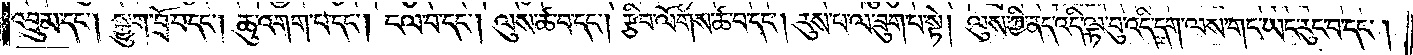འབྲུམ་དང༌། སྐྱུག་བྲོ་བ་དང༌། ཆུ་འགག་པ་དང༌། ངལ་བ་དང༌། ལུས་ཚ་བ་དང༌། རྩིབ་ལོགས་ཚ་བ་དང༌། རུས་པ་ལ་ཟུག་པ་སྟེ། ལུས་ཀྱི་ནད་འདི་ལྟ་བུ་འདི་དག་ལས་གང་ཡང་རུང་བ་དང༌།
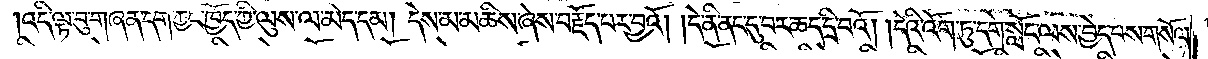།འདི་ལྟ་བུ་གཞན་དག་ཀྱང་ཁྱོད་ཀྱི་ལུས་ལ་མེད་དམ། དེས་མ་མཆིས་ཞེས་བརྗོད་པར་བྱའོ། །དེ་ནི་ནང་དུ་བར་ཆད་དྲི་བའོ། །དེའི་འོག་ཏུ་དགེ་སློང་ལས་བྱེད་པས་གསོལ་
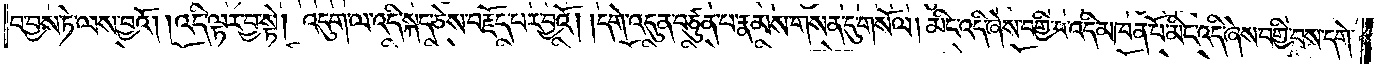བ་བྱས་ཏེ་ལས་བྱའོ། །འདི་ལྟར་བྱ་སྟེ། འདུག་ལ་འདི་སྐད་ཅེས་བརྗོད་པར་བྱའོ། །དགེ་འདུན་བཙུན་པ་རྣམས་གསན་དུ་གསོལ། མིང་འདི་ཞེས་བགྱི་བ་འདི་མཁན་པོ་མིང་འདི་ཞེས་བགྱི་བས་དགེ་
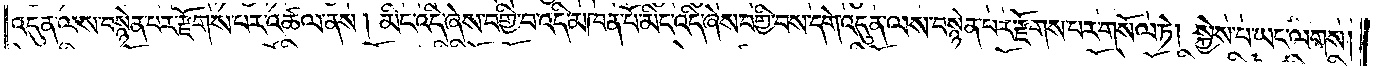འདུན་ལས་བསྙེན་པར་རྫོགས་པར་འཚལ་ནས། མིང་འདི་ཞེས་བགྱི་བ་འདི་མཁན་པོ་མིང་འདི་ཞེས་བགྱི་བས་དགེ་འདུན་ལས་བསྙེན་པར་རྫོགས་པར་གསོལ་ཏེ། སྐྱེས་པ་ཡང་ལགས།
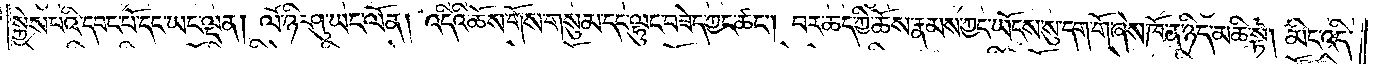སྐྱེས་པའི་དབང་པོ་དང་ཡང་ལྡན། ལོ་ཉི་ཤུ་ཡང་ལོན། འདིའི་ཆོས་གོས་གསུམ་དང་ལྷུང་བཟེད་ཀྱང་ཚང༌། བར་ཆད་ཀྱི་ཆོས་རྣམས་ཀྱང་ཡོངས་སུ་དག་གོ་ཞེས་ཁོ་ན་ཉིད་མཆི་སྟེ། མིང་འདི་
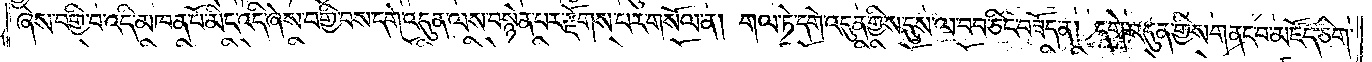ཞེས་བགྱི་བ་འདི་མཁན་པོ་མིང་འདི་ཞེས་བགྱི་བས་དགེ་འདུན་ལས་བསྙེན་པར་རྫོགས་པར་གསོལ་ན། གལ་ཏེ་དགེ་འདུན་གྱིས་དུས་ལ་བབ་ཅིང་བཟོད་ན། དགེ་འདུན་གྱིས་གནང་བ་མཛོད་ཅིག་
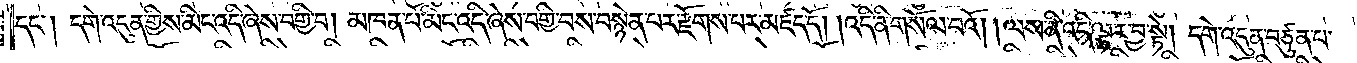དང༌། དགེ་འདུན་གྱིས་མིང་འདི་ཞེས་བགྱི་བ། མཁན་པོ་མིང་འདི་ཞེས་བགྱི་བས་བསྙེན་པར་རྫོགས་པར་མཛད་དོ། །འདི་ནི་གསོལ་བའོ། །ལས་ནི་འདི་ལྟར་བྱ་སྟེ། དགེ་འདུན་བཙུན་པ་
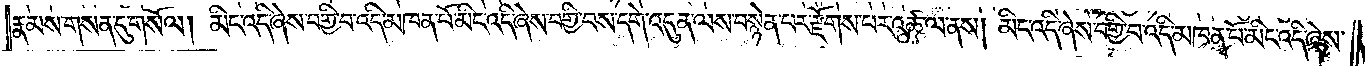རྣམས་གསན་དུ་གསོལ། མིང་འདི་ཞེས་བགྱི་བ་འདི་མཁན་པོ་མིང་འདི་ཞེས་བགྱི་བས་དགེ་འདུན་ལས་བསྙེན་པར་རྫོགས་པར་འཚལ་ནས། མིང་འདི་ཞེས་བགྱི་བ་འདི་མཁན་པོ་མིང་འདི་ཞེས་
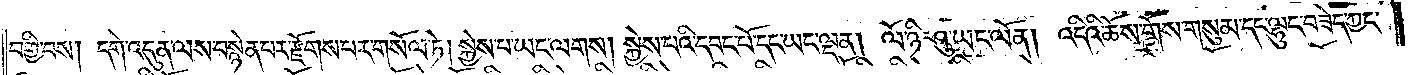བགྱི་བས། དགེ་འདུན་ལས་བསྙེན་པར་རྫོགས་པར་གསོལ་ཏེ། སྐྱེས་པ་ཡང་ལགས། སྐྱེས་པའི་དབང་པོ་དང་ཡང་ལྡན། ལོ་ཉི་ཤུ་ཡང་ལོན། འདིའི་ཆོས་གོས་གསུམ་དང་ལྷུང་བཟེད་ཀྱང་
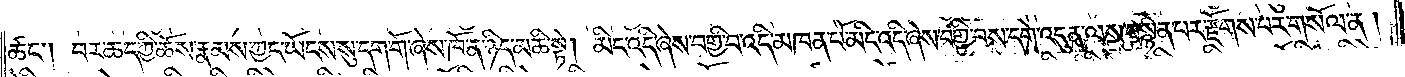ཚང༌། བར་ཆད་ཀྱི་ཆོས་རྣམས་ཀྱང་ཡོངས་སུ་དག་གོ་ཞེས་ཁོ་ན་ཉིད་མཆི་སྟེ། མིང་འདི་ཞེས་བགྱི་བ་འདི་མཁན་པོ་མིང་འདི་ཞེས་བགྱི་བས་དགེ་འདུན་ལས་བསྙེན་པར་རྫོགས་པར་གསོལ་ན །
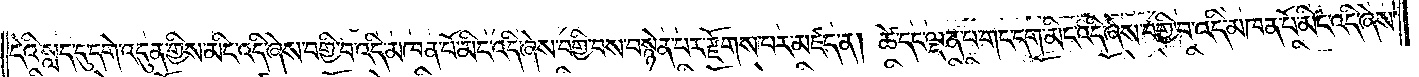དེའི་སླད་དུ་དགེ་འདུན་གྱིས་མིང་འདི་ཞེས་བགྱི་བ་འདི་མཁན་པོ་མིང་འདི་ཞེས་བགྱི་བས་བསྙེན་པར་རྫོགས་པར་མཛད་ན། ཚེ་དང་ལྡན་པ་གང་དག་མིང་འདི་ཞེས་བགྱི་བ་འདི་མཁན་པོ་མིང་འདི་ཞེས་
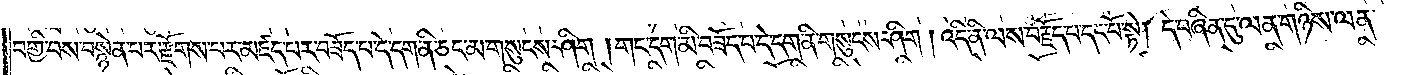བགྱི་བས་བསྙེན་པར་རྫོགས་པར་མཛད་པར་བཟོད་པ་དེ་དག་ནི་ཅང་མ་གསུངས་ཤིག །གང་དག་མི་བཟོད་པ་དེ་དག་ནི་གསུངས་ཤིག །འདི་ནི་ལས་བརྗོད་པ་དང་པོ་སྟེ། དེ་བཞིན་དུ་ལན་གཉིས་ལན་
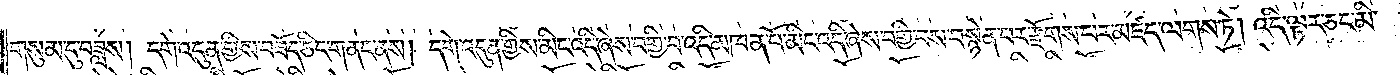གསུམ་དུ་བཟླས། དགེ་འདུན་གྱིས་བཟོད་ཅིང་གནང་ནས། དགེ་འདུན་གྱིས་མིང་འདི་ཞེས་བགྱི་བ་འདི་མཁན་པོ་མིང་འདི་ཞེས་བགྱི་བས་བསྙེན་པར་རྫོགས་པར་མཛད་ལགས་ཏེ། འདི་ལྟར་ཅང་མི་
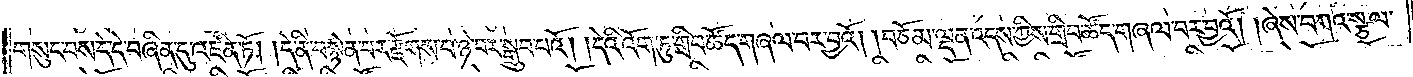གསུང་བས་དེ་དེ་བཞིན་དུ་འཛིན་ཏོ། །དེ་ནི་བསྙེན་པར་རྫོགས་པ་ཉེ་བར་སྒྲུབ་པའོ། །དེའི་འོག་ཏུ་གྲིབ་ཚོད་གཞལ་བར་བྱའོ། །བཅོམ་ལྡན་འདས་ཀྱིས་གྲིབ་ཚོད་གཞལ་བར་བྱའོ། །ཞེས་བཀའ་སྩལ་
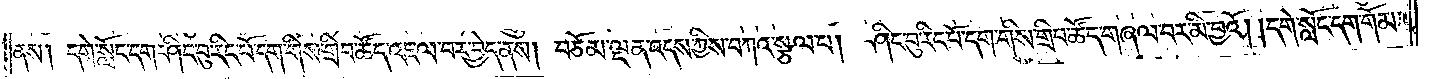ནས། དགེ་སློང་དག་ཤིང་བུ་རིང་པོ་དག་གིས་གྲིབ་ཚོད་འཇལ་བར་བྱེད་ནས། བཅོམ་ལྡན་འདས་ཀྱིས་བཀའ་སྩལ་པ། ཤིང་བུ་རིང་པོ་དག་གིས་གྲིབ་ཚོད་གཞལ་བར་མི་བྱའོ། །དགེ་སློང་དག་གོམ་
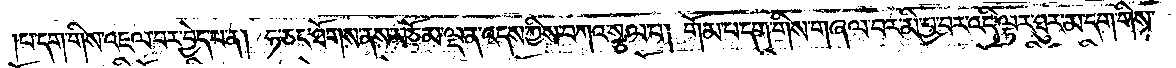པ་དག་གིས་འཇལ་བར་བྱེད་པ་ན། ཧ་ཅང་ཐོགས་ནས་བཅོམ་ལྡན་འདས་ཀྱིས་བཀའ་སྩལ་པ། གོམ་པ་དག་གིས་གཞལ་བར་མི་བྱ་བར་འདི་ལྟར་ཐུར་མ་དག་གིས་
